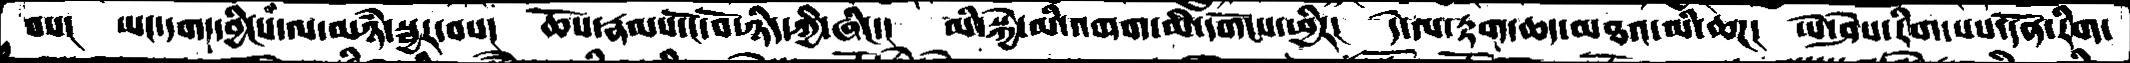བས།  ཡང་དག་དབྱིངས་ལ་མཉཾ་སྦྱར་བས།  ཆོས་རྣམས་ངོ་བོ་ཉིད་ཀྱི་ཞིང་།  མི་སྐྱེ་མི་འགག་མི་དགོངས་ཕྱིར།  དེ་ལ་རྟག་ཆད་མཐའ་མི་ཆཌ། ཡེ་ཤེས་རིག་པས་དོན་རིག་
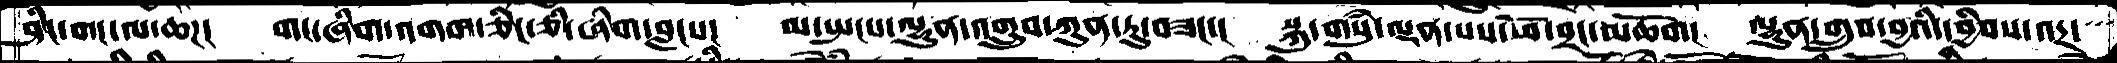ཤིང་གང་ལ་ཆཌ།  གང་ཞིག་འགག་ཅིང་ཅི་ཞིག་བླངས།  མ་སྤངས་ལྷུན་འགྲུབ་ཀུན་ཏུ་བཟང་།  སྐུ་གསུཾ་ལྡན་པས་ཕོ་བྲང་མཆོག།  ལྷུན་གྲུབ་བྱའི་དབྱིབས་འདྲ་
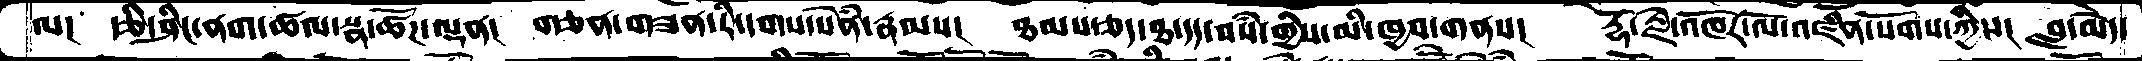ལ།  རྩི་ཤིང་ནག་ཚལ་སྣ་ཚོཌ་ལྡན།  གཅན་གཟན་རི་དགས་སེནཾ་རྣམས།  ཐམས་ཅད་ཐ་དད་བསཾ་གྱིས་མི་ཁྱབ་གནས།  རྡོ་རྗེ་འཁོར་ལོ་འཛིན་སོགས་ཀྱིས།  བླ་མེད་
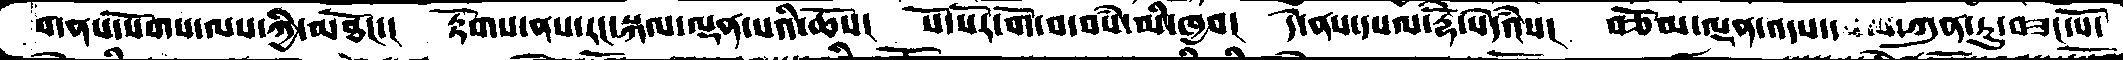གནས་སོགས་ལས་ཀྱི་མཐོང་།  རྟོགས་ནས་རང་སྐལ་ལྡན་པའི་ཆོས།  སོ་སོར་གོ་བ་བསཾ་མི་ཁྱབ།  དེ་ནས་དཔལ་རྡོེ་སེདཾའས།  བཅོམ་ལྡན་འདས་དཔལ་ཀུན་ཏུ་བཟང་པོ་
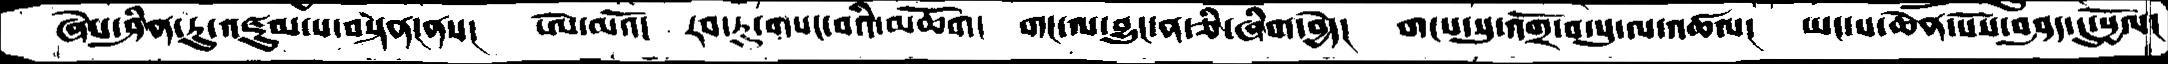ཞེས་ཤིན་ཏུ་འཛུམ་པ་བསྟན།ནས།    ཨེ་མའོ་  རབ་ཏུ་གསང་བའི་མཆོག་   གང་ལ་བྱུང་ན་ཅི་ཞིག་བྱེེད།   གངས་སུ་འགྲོ་བ་སུ་ལ་འཚལ།   ཡང་པ་ཆེན་པོས་བཤད་དུ་སྱོལ།
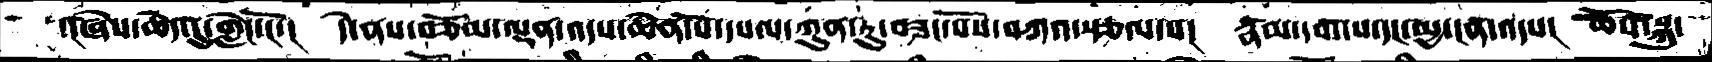་།ཞེས་ཆེེད་དུ་གླེང་ངོ་།    དེ་ནས་བཅོམ་ལྡན་འདས་ཆེན་པོ་དཔལ་ཀུན་ཏུ་བཟང་པོས་བཀའ་སྩལ་པ།   རྣམ་དག་པ་དང་མྱ་ངན་འདས།   ཆོས་སྐུ་
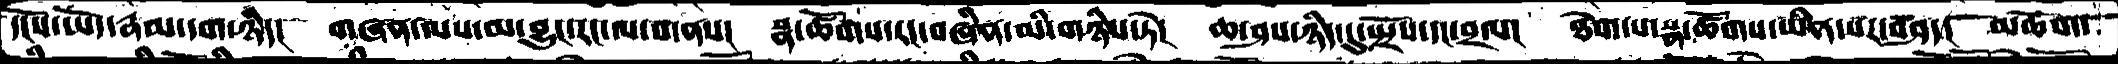དངོས་ཡོད་རྣམ་དག་ཉིད།   གཞན་ལས་མ་བྱུང་རང་ལ་གནས།  སྣ་ཚོགས་རང་བཞིན་མི་གཉིས་ཏེ།  ཆ་ཤས་ཉིད་དུ་སྤྲོས་དང་བྲལ།   ཐེག་པ་སྣ་ཚོགས་ཡིན་པར་བཤད།   མཆོག་
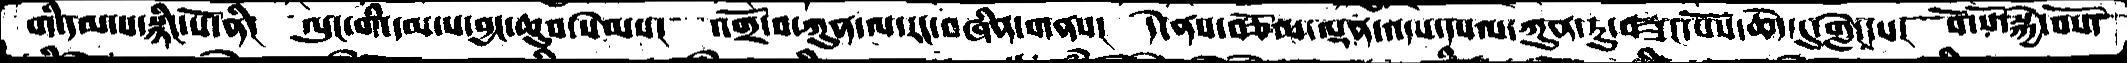གི་དམ་པ་སྙིང་པོ་ནི།   ལུང་གི་དམ་པ་བྱང་ཆུབ་སེམས།   འགྲོ་བ་ཀུན་ལ་རང་བཞིན་གནས།   དེ་ནས་བཅོམ་ལྡན་འདས་དཔལ་ཀུན་ཏུ་བཟང་པོས་ཆེད་དུ་གླེང་པ།   སོ་སོ་སྐྱེ་བོས་
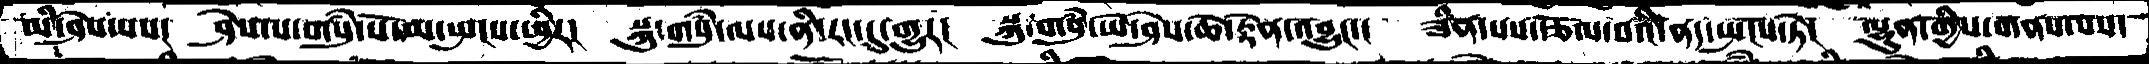མི་ཤེས་པས།   ཤེས་པ་གསུཾ་པོ་མ་སྤངས་ཕྱིར།   སྐུ་གསུཾ་ལས་ནི་རང་དུ་གྱུར།   སྐུ་གསུཾ་ཡེ་ཤེས་ཆེ་རྟེན་འབྱུང་།   ཟིན་པས་རྩོལ་བའི་ནད་སྤངས་ཏེ།   ལྷུན་གྱིས་གནས་པས་
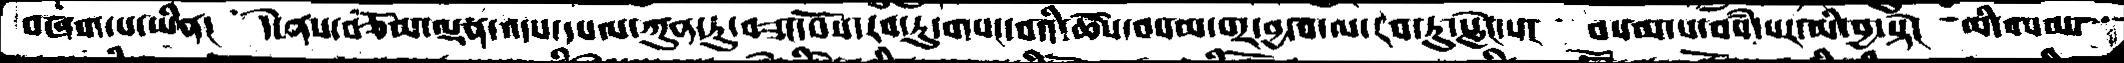བཞག་པ་ཡིན།  དེ་ནས་བཅོམ་ལྡན་འདས་དཔལ་ཀུན་ཏུ་བཟང་པོས་རབ་ཏུ་གསང་བའི་ཆོས་བསམ་པར་བྱ་བ་ལ་རབ་ཏུ་སླེང་པ།  བསམ་པ་བསཾ་པར་མི་བྱ་སྟེ།  མི་བསམ་
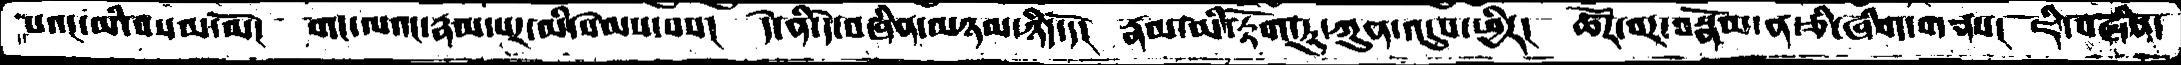པའང་མི་བསམ་མོ།  གང་ལའང་རྣམ་པར་མི་སེམས་པས།  དེ་ནི་དེ་བཞིན་མཉམ་ཉིད་དོ།  རྣམ་མི་རྟོག་ཏུ་ཀུན་འདུས་ཕྱིར།  ཚོར་བར་བསྣོམ་ན་ཅི་ཞིག་གནས།  ཇི་བཞིན་
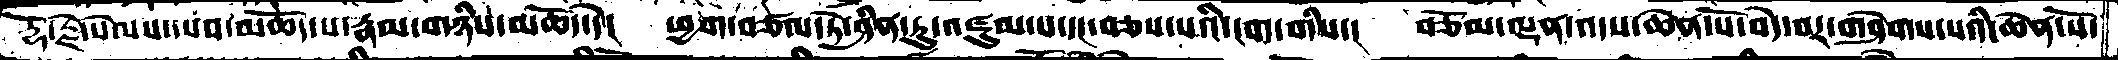རྡོ་རྗེ་སེམས་དཔའ་མཆོད་པ་རྣམ་གཉིས་མཆོད་དེ།  ཕྱག་བཙལ་ཏེ་ཤིན་ཏུ་འཛུམ་པ་དང་བཅས་པའི་ངག་གིས་།  བཅོམ་ལྡན་འདས་ཆེན་པོ་བདེ་བར་གཤེགས་པའི་ཆེན་པོ་
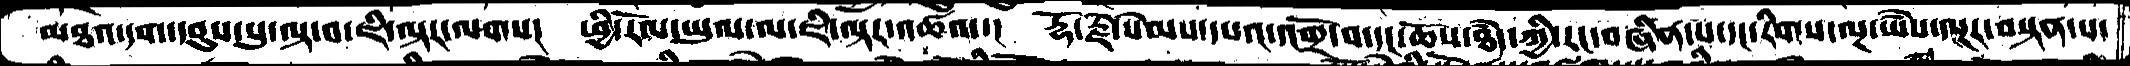མཐའ་དག་དབུས་སུ་ལྟ་བ་ཇི་ལྟར་ལགས།  ཕྱི་རོལ་ཡུལ་ལ་ཇི་ལྟར་འཚལ་།  རྡོ་རྗེ་སེམས་དཔའ་འགྲོ་བ་དང་ཆོས་ཐཾད་ཀྱི་རང་བཞིན་པ་དང་རིགས་ལྔ་ཡེཻས་ལྔར་བསྟན་པ་
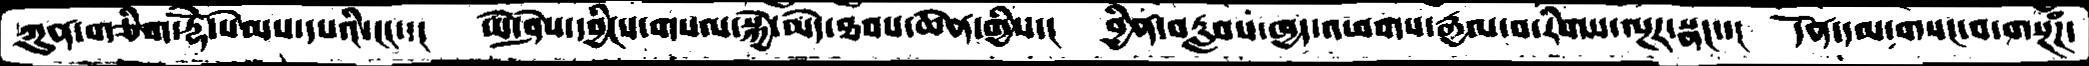ཀུན་གཅིག་རྡོེ་སེམས་དཔའི་ངང་་།   ཡེ་ཤེས་དབྱིངས་གསལ་སྐྱེ་མེད་ཐབས་ཆེན་གྱིས་།  བྱིན་བརླབས་ཁྱད་འཕགས་རྒྱལ་བ་རིགས་ལྔར་སྣང་་།  དོན་དམ་གསང་བ་གསྔཾཌ
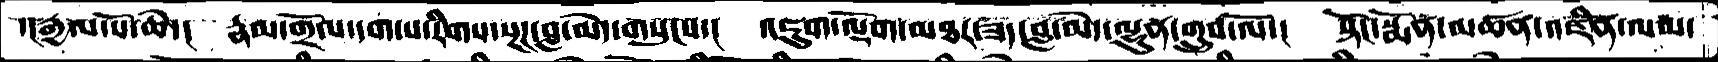དང་རྒྱལ་པོ་ཆེ་།  རྣམ་གྲོལ་དག་པ་རིགས་སྔཌ་བླ་མེད་གསུངས་།  འཇུག་ལྡོག་མཐར་ཟད་བླ་མེད་ལྷུན་གྲུབ་ལོ་།   སྟོང་སྨོན་མཚན་འཛིན་ལམ་
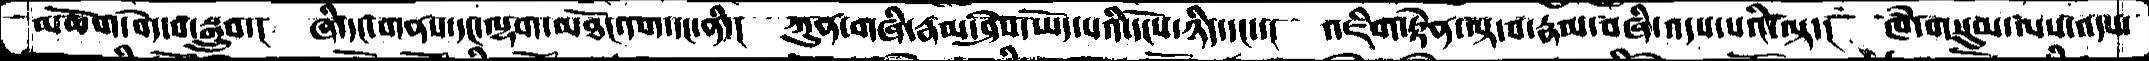མཆོག་བདེ་བ་སྒྲུབ་།  ཞི་དང་གནས་དང་ལྷག་མཐོང་དག་དང་ནིདང ཀུན་གཞི་རྣམ་ཤེས་ཡོད་པའི་དངོས་ཉིད་དང་་། འཇིག་རྟེན་ལྟ་བ་རྣམ་བཞི་འདས་པའི་ལྟ་། ཁཾ་གསུམ་ལས་འདས་
